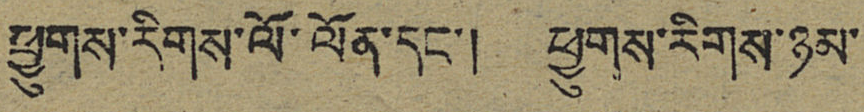ཕྱུགས་རིགས་ལོ་ལོན་དང་། ཕྱུགས་རིགས་ཉམ་
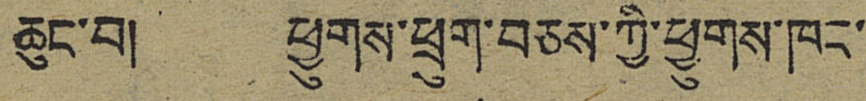ཆུང་བ། ཕྱུགས་ཕྲུག་བཅས་ཀྱི་ཕྱུགས་ཁང་
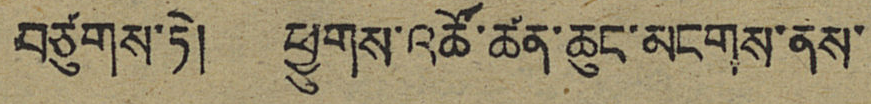བཙུགས་ཏེ། ཕྱུགས་འཚོ་ཚན་ཆུང་མངགས་ནས་
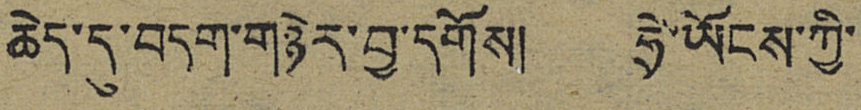ཆེད་དུ་བདག་གཉེར་བྱ་དགོས། ཧྲེ་ཡོངས་ཀྱི་
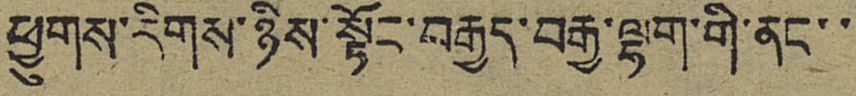ཕྱུགས་རིགས་ཉིས་སྟོང་བརྒྱད་བརྒྱ་ལྷག་གི་ནང་་
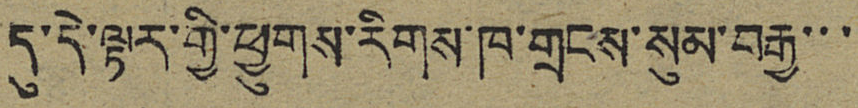དུ་དེ་ལྟར་གྱི་ཕྱུགས་རིགས་ཁ་གྲངས་སུམ་བརྒྱ་་་
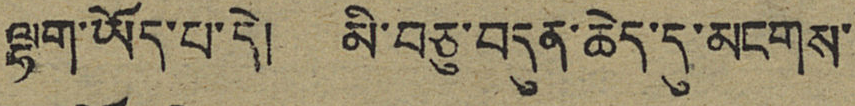ལྷག་ཡོད་པ་དེ། མི་བཅུ་བདུན་ཆེད་དུ་མངགས་
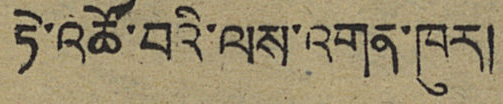ཏེ་འཚོ་བའི་ལས་འགན་ཁུར།
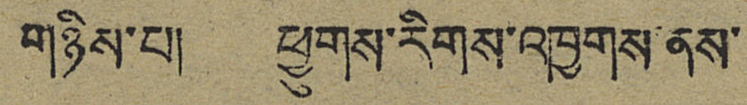གཉིས་པ། ཕྱུགས་རིགས་འཁྱགས་ནས་
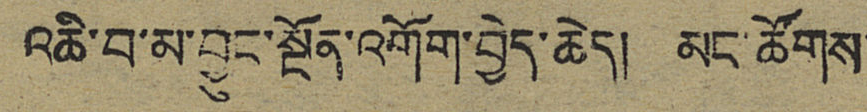འཆི་བ་མ་བྱུང་སྔོན་འགོག་བྱེད་ཆེད། མང་ཚོགས་
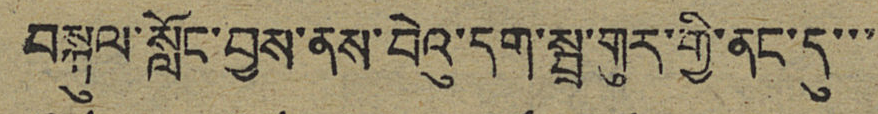བསྐུལ་སློང་བྱས་ནས་བེའུ་དག་སྦྲ་གུར་གྱི་ནང་དུ་་་
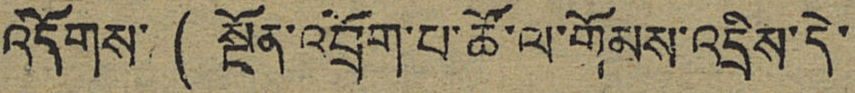འདོགས་ (སྔོན་འབྲོག་པ་ཚོ་ལ་གོམས་འདྲིས་དེ་
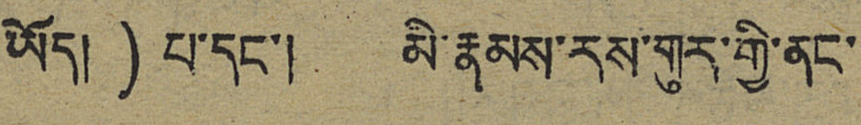ཡོད།) པ་དང་། མི་རྣམས་རས་གུར་གྱི་ནང་
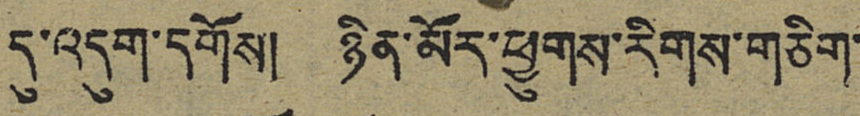དུ་འདུག་དགོས། ཉིན་མོར་ཕྱུགས་རིགས་གཅིག་
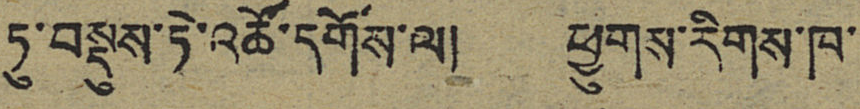ཏུ་བསྡུས་ཏེ་འཚོ་དགོས་ལ། ཕྱུགས་རིགས་ཁ་
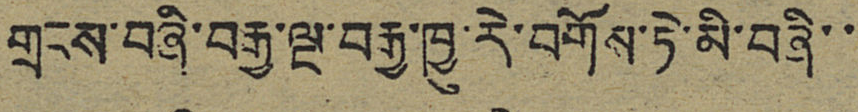གྲངས་བཞི་བརྒྱ་ལྔ་བརྒྱ་ཁྱུ་རེ་བགོས་ཏེ་མི་བཞི་་
